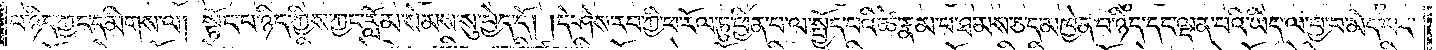པ་ཉིད་ཀྱང་དམིགས་ལ། སྟོང་པ་ཉིད་ཀྱིས་ཀྱང་རློམ་སེམས་སུ་བྱེད་དོ། །དེ་ཤེས་རབ་ཀྱི་ཕ་རོལ་ཏུ་ཕྱིན་པ་ལ་སྤྱོད་པའི་ཚེ་རྣམ་པ་ཐམས་ཅད་མཁྱེན་པ་ཉིད་དང་ལྡན་པའི་ཡིད་ལ་བྱ་བ་མེད་པར་
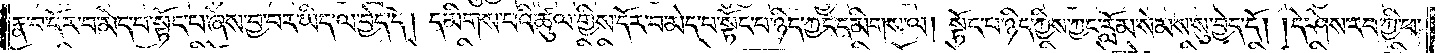རྣ་བ་དོར་བ་མེད་པ་སྟོང་པ་ཞེས་བྱ་བར་ཡིད་ལ་བྱེད་དེ། དམིགས་པའི་ཚུལ་གྱིས་དོར་བ་མེད་པ་སྟོང་པ་ཉིད་ཀྱང་དམིགས་ལ། སྟོང་པ་ཉིད་ཀྱིས་ཀྱང་རློམ་སེམས་སུ་བྱེད་དོ། །དེ་ཤེས་རབ་ཀྱི་ཕ་
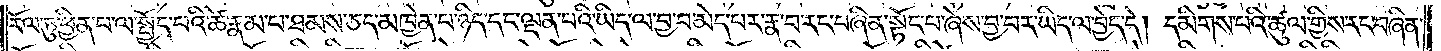རོལ་ཏུ་ཕྱིན་པ་ལ་སྤྱོད་པའི་ཚེ་རྣམ་པ་ཐམས་ཅད་མཁྱེན་པ་ཉིད་དང་ལྡན་པའི་ཡིད་ལ་བྱ་བ་མེད་པར་རྣ་བ་རང་བཞིན་སྟོང་པ་ཞེས་བྱ་བར་ཡིད་ལ་བྱེད་དེ། དམིགས་པའི་ཚུལ་གྱིས་རང་བཞིན་
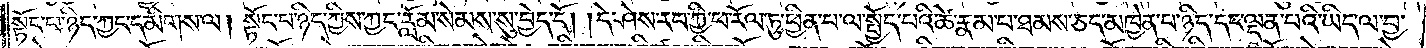སྟོང་པ་ཉིད་ཀྱང་དམིགས་ལ། སྟོང་པ་ཉིད་ཀྱིས་ཀྱང་རློམ་སེམས་སུ་བྱེད་དོ། །དེ་ཤེས་རབ་ཀྱི་ཕ་རོལ་ཏུ་ཕྱིན་པ་ལ་སྤྱོད་པའི་ཚེ་རྣམ་པ་ཐམས་ཅད་མཁྱེན་པ་ཉིད་དང་ལྡན་པའི་ཡིད་ལ་བྱ་
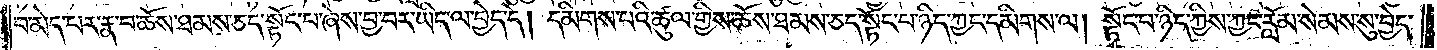བ་མེད་པར་རྣ་བ་ཆོས་ཐམས་ཅད་སྟོང་པ་ཞེས་བྱ་བར་ཡིད་ལ་བྱེད་དེ། དམིགས་པའི་ཚུལ་གྱིས་ཆོས་ཐམས་ཅད་སྟོང་པ་ཉིད་ཀྱང་དམིགས་ལ། སྟོང་པ་ཉིད་ཀྱིས་ཀྱང་རློམ་སེམས་སུ་བྱེད་
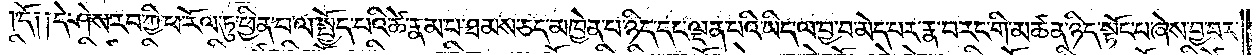དོ༑ ༑དེ་ཤེས་རབ་ཀྱི་ཕ་རོལ་ཏུ་ཕྱིན་པ་ལ་སྤྱོད་པའི་ཚེ་རྣམ་པ་ཐམས་ཅད་མཁྱེན་པ་ཉིད་དང་ལྡན་པའི་ཡིད་ལ་བྱ་བ་མེད་པར་རྣ་བ་རང་གི་མཚན་ཉིད་སྟོང་པ་ཞེས་བྱ་བར་
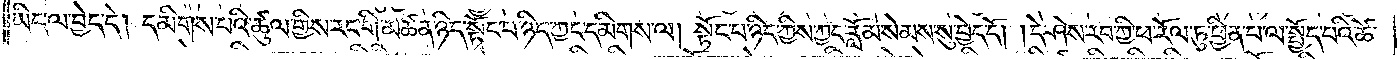ཡིད་ལ་བྱེད་དེ། དམིགས་པའི་ཚུལ་གྱིས་རང་གི་མཚན་ཉིད་སྟོང་པ་ཉིད་ཀྱང་དམིགས་ལ། སྟོང་པ་ཉིད་ཀྱིས་ཀྱང་རློམ་སེམས་སུ་བྱེད་དོ། །དེ་ཤེས་རབ་ཀྱི་ཕ་རོལ་ཏུ་ཕྱིན་པ་ལ་སྤྱོད་པའི་ཚེ་
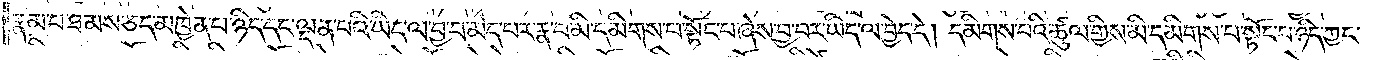རྣམ་པ་ཐམས་ཅད་མཁྱེན་པ་ཉིད་དང་ལྡན་པའི་ཡིད་ལ་བྱ་བ་མེད་པར་རྣ་བ་མི་དམིགས་པ་སྟོང་པ་ཞེས་བྱ་བར་ཡིད་ལ་བྱེད་དེ། དམིགས་པའི་ཚུལ་གྱིས་མི་དམིགས་པ་སྟོང་པ་ཉིད་ཀྱང་
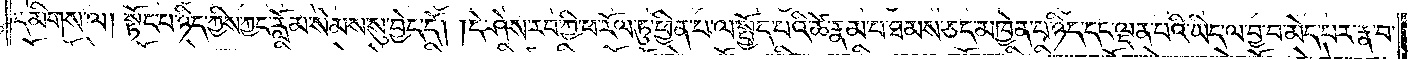དམིགས་ལ། སྟོང་པ་ཉིད་ཀྱིས་ཀྱང་རློམ་སེམས་སུ་བྱེད་དོ། །དེ་ཤེས་རབ་ཀྱི་ཕ་རོལ་ཏུ་ཕྱིན་པ་ལ་སྤྱོད་པའི་ཚེ་རྣམ་པ་ཐམས་ཅད་མཁྱེན་པ་ཉིད་དང་ལྡན་པའི་ཡིད་ལ་བྱ་བ་མེད་པར་རྣ་བ་
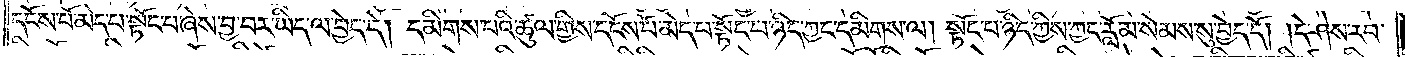དངོས་པོ་མེད་པ་སྟོང་པ་ཞེས་བྱ་བར་ཡིད་ལ་བྱེད་དེ། དམིགས་པའི་ཚུལ་གྱིས་དངོས་པོ་མེད་པ་སྟོང་པ་ཉིད་ཀྱང་དམིགས་ལ། སྟོང་པ་ཉིད་ཀྱིས་ཀྱང་རློམ་སེམས་སུ་བྱེད་དོ། །དེ་ཤེས་རབ་
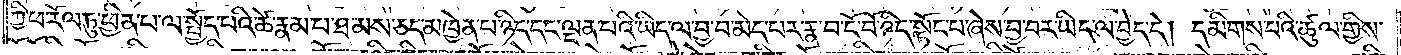ཀྱི་ཕ་རོལ་ཏུ་ཕྱིན་པ་ལ་སྤྱོད་པའི་ཚེ་རྣམ་པ་ཐམས་ཅད་མཁྱེན་པ་ཉིད་དང་ལྡན་པའི་ཡིད་ལ་བྱ་བ་མེད་པར་རྣ་བ་ངོ་བོ་ཉིད་སྟོང་པ་ཞེས་བྱ་བར་ཡིད་ལ་བྱེད་དེ། དམིགས་པའི་ཚུལ་གྱིས་
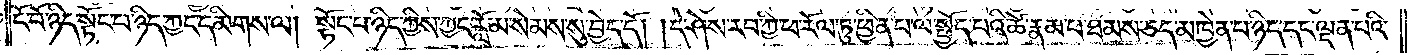ངོ་བོ་ཉིད་སྟོང་པ་ཉིད་ཀྱང་དམིགས་ལ། སྟོང་པ་ཉིད་ཀྱིས་ཀྱང་རློམ་སེམས་སུ་བྱེད་དོ། །དེ་ཤེས་རབ་ཀྱི་ཕ་རོལ་ཏུ་ཕྱིན་པ་ལ་སྤྱོད་པའི་ཚེ་རྣམ་པ་ཐམས་ཅད་མཁྱེན་པ་ཉིད་དང་ལྡན་པའི་
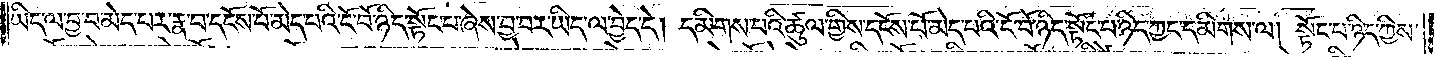ཡིད་ལ་བྱ་བ་མེད་པར་རྣ་བ་དངོས་པོ་མེད་པའི་ངོ་བོ་ཉིད་སྟོང་པ་ཞེས་བྱ་བར་ཡིད་ལ་བྱེད་དེ། དམིགས་པའི་ཚུལ་གྱིས་དངོས་པོ་མེད་པའི་ངོ་བོ་ཉིད་སྟོང་པ་ཉིད་ཀྱང་དམིགས་ལ། སྟོང་པ་ཉིད་ཀྱིས་
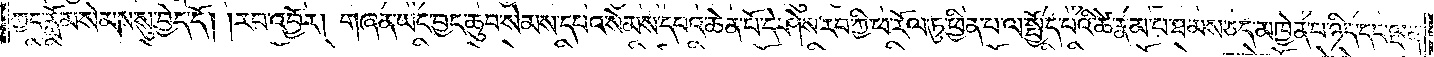ཀྱང་རློམ་སེམས་སུ་བྱེད་དོ། །རབ་འབྱོར། གཞན་ཡང་བྱང་ཆུབ་སེམས་དཔའ་སེམས་དཔའ་ཆེན་པོ་དེ་ཤེས་རབ་ཀྱི་ཕ་རོལ་ཏུ་ཕྱིན་པ་ལ་སྤྱོད་པའི་ཚེ་རྣམ་པ་ཐམས་ཅད་མཁྱེན་པ་ཉིད་དང་ལྡན་
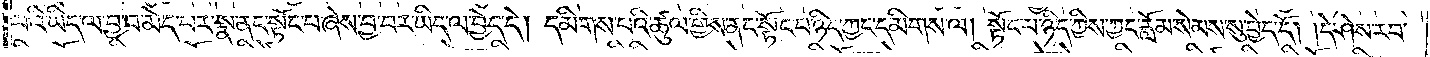པའི་ཡིད་ལ་བྱ་བ་མེད་པར་སྣ་ནང་སྟོང་པ་ཞེས་བྱ་བར་ཡིད་ལ་བྱེད་དེ། དམིགས་པའི་ཚུལ་གྱིས་ནང་སྟོང་པ་ཉིད་ཀྱང་དམིགས་ལ། སྟོང་པ་ཉིད་ཀྱིས་ཀྱང་རློམ་སེམས་སུ་བྱེད་དོ། །དེ་ཤེས་རབ་
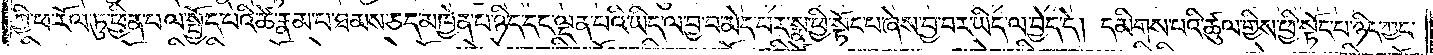ཀྱི་ཕ་རོལ་ཏུ་ཕྱིན་པ་ལ་སྤྱོད་པའི་ཚེ་རྣམ་པ་ཐམས་ཅད་མཁྱེན་པ་ཉིད་དང་ལྡན་པའི་ཡིད་ལ་བྱ་བ་མེད་པར་སྣ་ཕྱི་སྟོང་པ་ཞེས་བྱ་བར་ཡིད་ལ་བྱེད་དེ། དམིགས་པའི་ཚུལ་གྱིས་ཕྱི་སྟོང་པ་ཉིད་ཀྱང་
